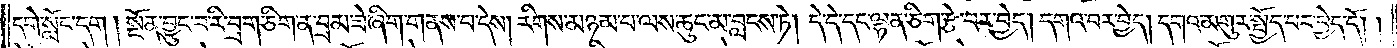དགེ་སློང་དག །སྔོན་བྱུང་བ་རི་བྲག་ཅིག་ན་བྲམ་ཟེ་ཞིག་གནས་པ་དེས། རིགས་མཉམ་པ་ལས་ཆུང་མ་བླངས་ཏེ། དེ་དེ་དང་ལྷན་ཅིག་རྩེ་བར་བྱེད། དགའ་བར་བྱེད། དགའ་མགུར་སྤྱོད་པར་བྱེད་དོ། །
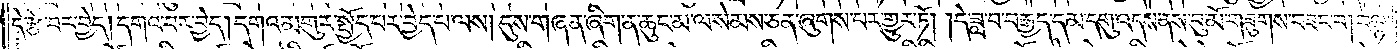དེ་རྩེ་བར་བྱེད། དགའ་བར་བྱེད། དགའ་མགུར་སྤྱོད་པར་བྱེད་པ་ལས། དུས་གཞན་ཞིག་ན་ཆུང་མ་ལ་སེམས་ཅན་ཞུགས་པར་གྱུར་ཏོ། །དེ་ཟླ་བ་བརྒྱད་དམ་དགུ་འདས་ནས་བུ་མོ་གཟུགས་བཟང་བ། བལྟ་
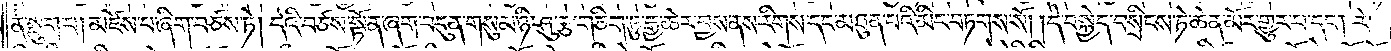ན་སྡུག་པ། མཛེས་པ་ཞིག་བཙས་ཏེ། དེའི་བཙས་སྟོན་ཞག་བདུན་གསུམ་ཉི་ཤུ་རྩ་གཅིག་ཏུ་རྒྱ་ཆེར་བྱས་ནས་རིགས་དང་མཐུན་པའི་མིང་བཏགས་སོ། །དེ་བསྐྱེད་བསྲིངས་ཏེ་ཆེན་མོར་གྱུར་པ་དང༌། རེ་
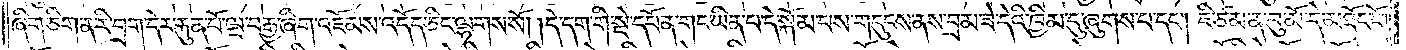ཞིག་ཅིག་ན་རི་བྲག་དེར་རྐུན་པོ་ལྔ་བརྒྱ་ཞིག་འཇོམས་འདོད་ཅིང་ལྷགས་སོ། །དེ་དག་གི་སྡེ་དཔོན་གང་ཡིན་པ་དེ་སྐོམ་པས་གདུངས་ནས་བྲམ་ཟེ་དེའི་ཁྱིམ་དུ་ཞུགས་པ་དང༌། ཇི་ཙམ་ན་བུ་མོ་དེ་མཐོང་ངོ་
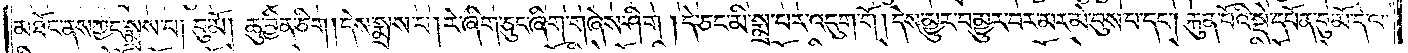མཐོང་ནས་ཀྱང་སྨྲས་པ། བུ་མོ། ཆུ་བྱིན་ཅིག །དེས་སྨྲས་པ། རེ་ཞིག་ཅུང་ཞིག་གཞེས་ཤིག །དེ་ཅང་མི་སྨྲ་བར་འདུག་གོ །དེས་མྱུར་བ་མྱུར་བར་མར་མེ་བུས་པ་དང༌། རྐུན་པོའི་སྡེ་དཔོན་བུ་མོ་དེ་ལ་
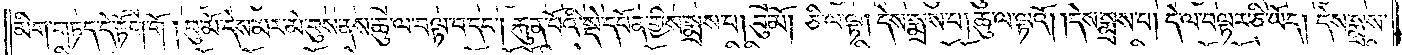མིག་གཏད་དེ་རྟོག་གོ །བུ་མོ་དེས་མར་མེ་བུས་ནས་ཆུ་ལ་བལྟ་བ་དང༌། རྐུན་པོའི་སྡེ་དཔོན་གྱིས་སྨྲས་པ། བུ་མོ། ཅི་ལ་ལྟ། དེས་སྨྲས་པ། ཆུ་ལ་ལྟའོ། །དེས་སྨྲས་པ། དེ་ལ་བལྟར་ཅི་ཡོད། དེས་སྨྲས་
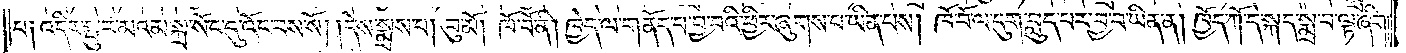པ། འདིར་སྤུར་མའམ་སྐྲ་སོང་དུ་འོང་བས་སོ། །དེས་སྨྲས་པ། བུ་མོ། ཁོ་བོ་ནི། ཁྱེད་ལ་གནོད་པ་བྱ་བའི་ཕྱིར་ཞུགས་པ་ཡིན་པས། ཁོ་བོ་ལ་དུག་བླུད་པར་བྱ་བ་ཡིན་ན། ཁྱོད་ཀོ་དེ་སྐད་སྨྲ་བ་ལྟ་ཞིག་
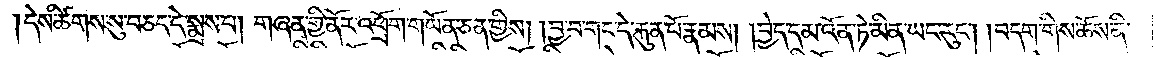དེས་ཚིགས་སུ་བཅད་དེ་སྨྲས་པ། གཞན་གྱི་ནོར་འཕྲོག་གཡོན་ཅན་གྱིས། །བྱ་བ་གང་དེ་རྐུན་པོ་རྣམས། །བྱེད་དམ་འོན་ཏེ་མིན་ཡང་རུང༌། །བདག་གིས་ཆོས་ནི་
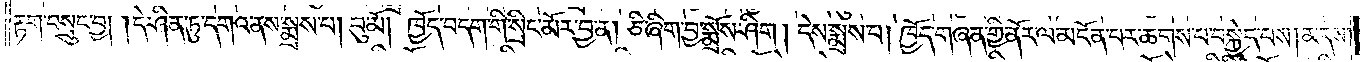རྟག་བསྲུང་བྱ། །དེ་ཤིན་ཏུ་དགའ་ནས་སྨྲས་པ། བུ་མོ། ཁྱོད་བདག་གི་སྲིང་མོར་བྱ་ན། ཅི་ཞིག་བྱ་སྨྲོས་ཤིག། དེས་སྨྲས་པ། ཁྱོད་གཞན་གྱི་ནོར་ལ་མངོན་པར་ཆགས་པ་བསྐྱེད་པས། མདས་
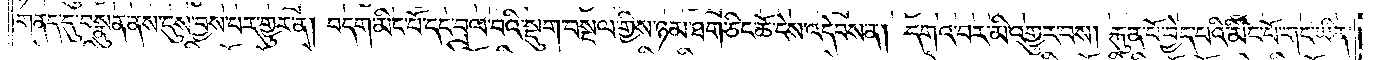གནད་དུ་བསྣུན་ནས་དུས་བྱས་པར་གྱུར་ན། བདག་མིང་པོ་དང་བྲལ་བའི་སྡུག་བསྔལ་གྱིས་ཉམ་ཐག་ཅིང་ཆོ་ངེས་འདེབས་ན། དགའ་བར་མི་འགྱུར་བས། རྐུན་པོ་བྱེད་པའི་མིང་པོ་གང་ཡིན་
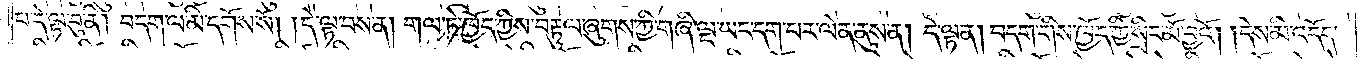པ་དེ་ལྟ་བུ་ནི། བདག་ལ་མི་དགོས་སོ། །དེ་ལྟ་བས་ན། གལ་ཏེ་ཁྱོད་ཀྱིས་བརྟུལ་ཞུགས་ཀྱི་གཞི་ལྔ་ཡང་དག་པར་ལེན་ནུས་ན། དེ་ལྟ་ན། བདག་གིས་ཁྱོད་ཀྱི་སྲིང་མོ་བྱའོ། །དེས་མི་འདོད་
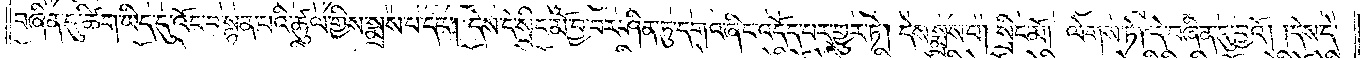བཞིན་དུ་ཚིག་ཡིད་དུ་འོང་བ་སྙན་པའི་ཚུལ་གྱིས་སྨྲས་པ་དང༌། དེས་དེ་སྲིང་མོ་བྱ་བར་ཤིན་ཏུ་དགའ་ཞིང་འདོད་པར་གྱུར་ཏེ། དེས་སྨྲས་པ། སྲིང་མོ། ལེགས་ཏེ། དེ་བཞིན་དུ་བྱའོ། །དེས་དེ་
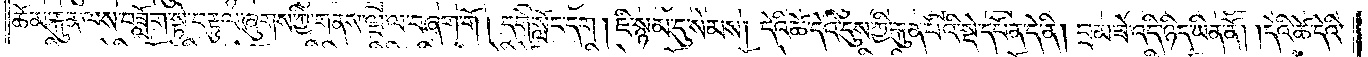ཆོམ་རྐུན་ལས་བཟློག་སྟེ་བརྟུལ་ཞུགས་ཀྱི་གནས་ལྔ་ལ་བཞག་གོ། །དགེ་སློང་དག། ཇི་སྙམ་དུ་སེམས། དེའི་ཚེ་དེའི་དུས་ཀྱི་རྐུན་པོའི་སྡེ་དཔོན་དེ་ནི། བྲམ་ཟེ་འདི་ཉིད་ཡིན་ནོ། །དེའི་ཚེ་དེའི་
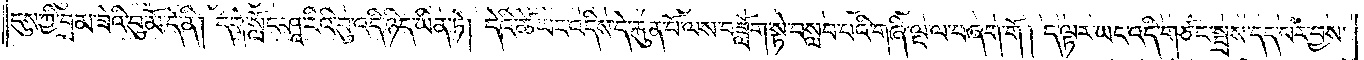དུས་ཀྱི་བྲམ་ཟེའི་བུ་མོ་དེ་ནི། དགེ་སློང་ཤཱ་རིའི་བུ་འདི་ཉིད་ཡིན་ཏེ། དེའི་ཚེ་ཡང་འདིས་དེ་རྐུན་པོ་ལས་བཟློག་སྟེ་བསླབ་པའི་གཞི་ལྔ་ལ་བཞག་གོ། །ད་ལྟར་ཡང་འདི་གཙང་སྦྲས་དད་པར་བྱས་
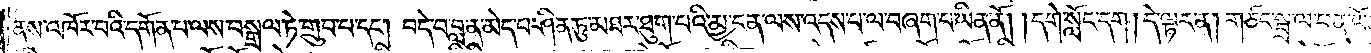ནས་འཁོར་བའི་དགོན་པ་ལས་བསྒྲལ་ཏེ་གྲུབ་པ་དང༌། བདེ་བ་བླ་ན་མེད་པ་ཤིན་ཏུ་མཐར་ཐུག་པའི་མྱ་ངན་ལས་འདས་པ་ལ་བཞག་པ་ཡིན་ནོ། །དགེ་སློང་དག། དེ་ལྟར་ན། གཙང་སྦྲ་ལ་ཕན་ཡོན་
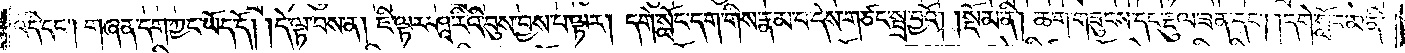འདི་དང༌། གཞན་དག་ཀྱང་ཡོད་དོ། །དེ་ལྟ་བས་ན། ཇི་ལྟར་ཤཱ་རིའི་བུས་བྱས་པ་ལྟར། དགེ་སློང་དག་གིས་རྣམ་པ་དེས་གཙང་སྦྲ་བྱའོ།    །སྡོམ་ནི། ཆ་ག་གཟུངས་དང་རྡུལ་ཟན་དང༌། །དགེ་སློང་མ་ནི་
